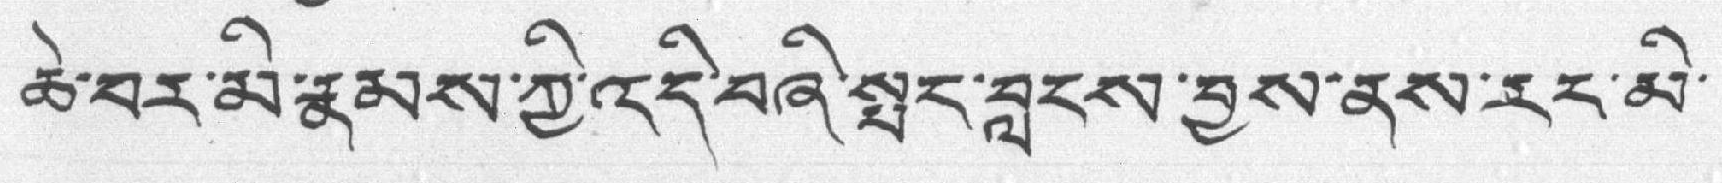ཆེ་བར་མི་རྣམས་ཀྱི་འདི་བཞི་སྤང་བླངས་བྱས་ནས་རང་མི་
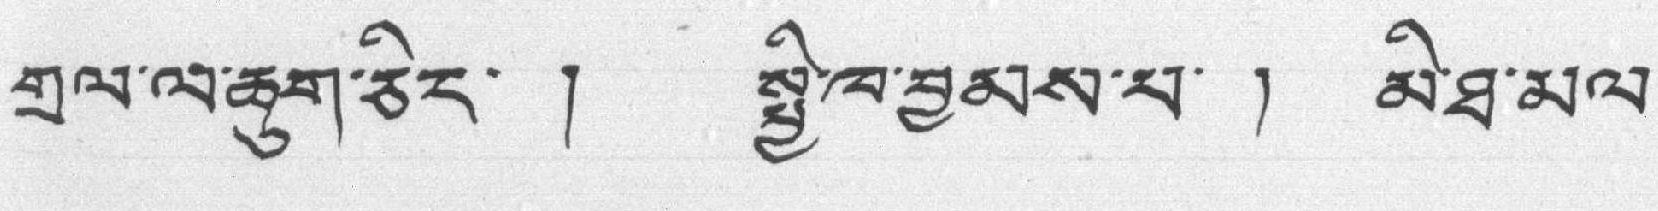གྲལ་ལ་ཆུག་ཅིང་ ། སྤྱི་ཁ་བྱམས་པ་ ། མི་ཐ་མལ་
